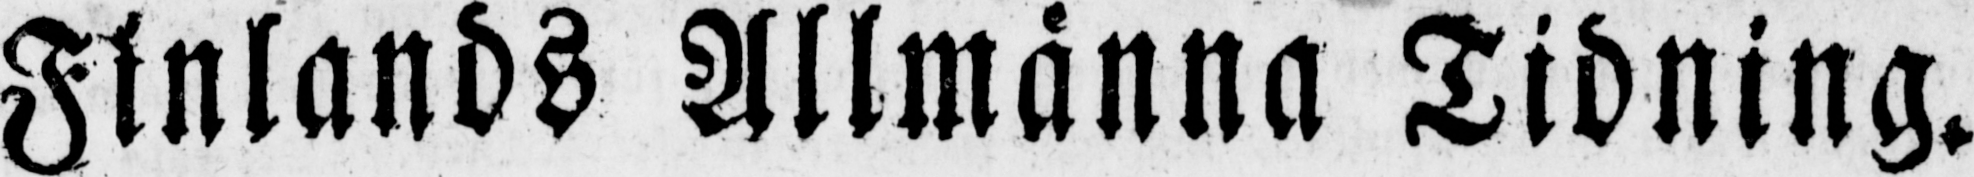Finlands Allmänna Tidning.
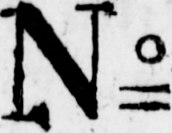N:o
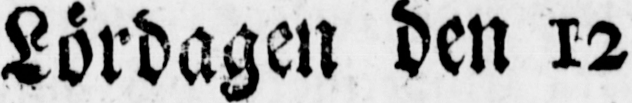Lördagen den 12
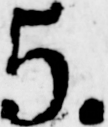5.
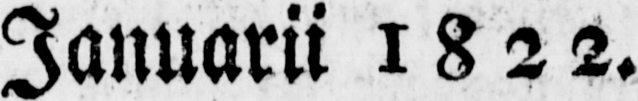Januarii 1822.
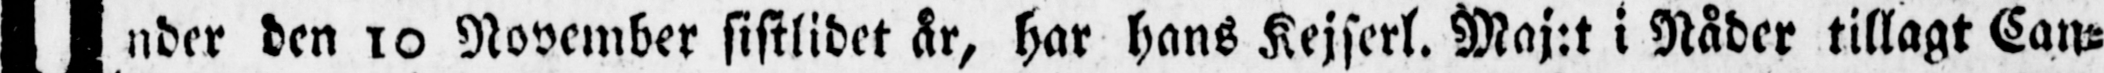Under den 10 November sistlidet år, har hans Kejserl. Maj:t i Nåder tillagt Can-
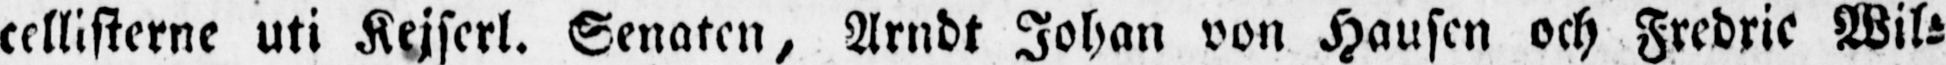cellisterne uti Kejserl. Senaten, Arndt Johan von Hausen och Fredric Wil-
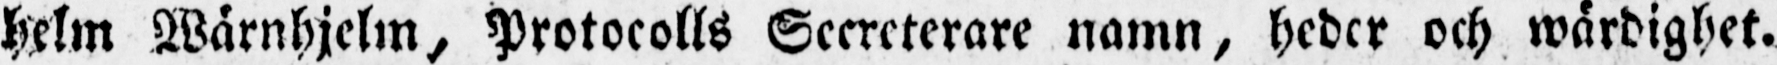helm Wärnhjelm, Protocolls Secreterare namn, heder och wärdighet.
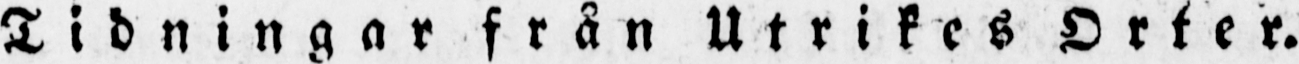Tidningar från Utrikes Orter.
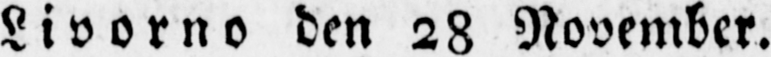Livorno den 28 November.
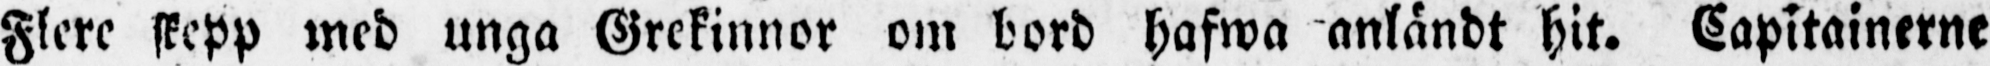Flere skepp med unga Grekinnor om bord hafwa anländt hit. Capitainerne
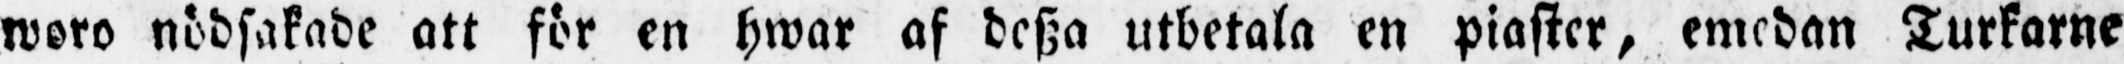woro nödsakade att för en hwar af desza utbetala en piaster, emedan Turkarne
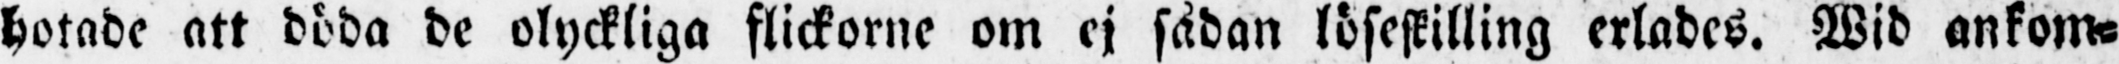hotade att döda de olyckliga flickorne om ej sådan löseskilling erlades. Wid ankom-
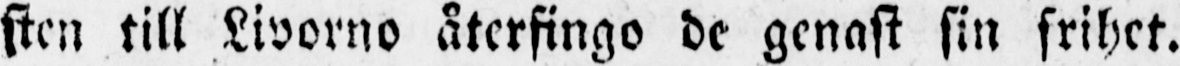sten till Livorno återfingo de genast sin frihet.
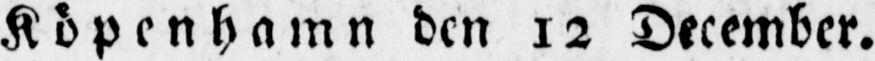Köpenhamn den 12 December.
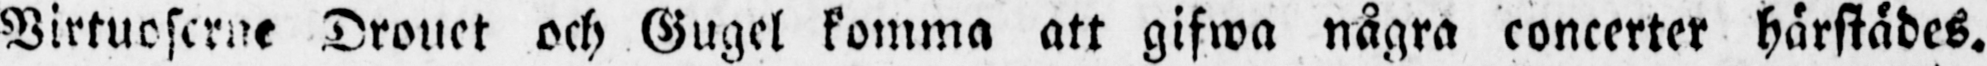Virtuoserne Drouet och Gugel komma att gifwa några concerter härstädes.
